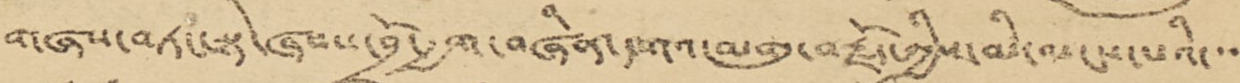གཞས་བཏང་སྟེ་ཞབས་བྲོ་རྒྱག་བཞིན་དགའ་མགུ་བརྗོད་ཀྱིས་མི་མངས་པའི་་་
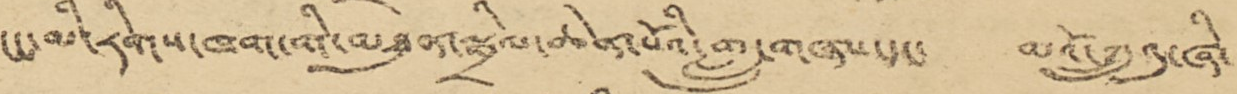ངང་མི་རིགས་ཁག་གི་མཐུན་སྒྲིལ་ཆེན་པོའི་གླུ་གཞས་དང་ མའོ་ཀྲུའུ་ཞི་
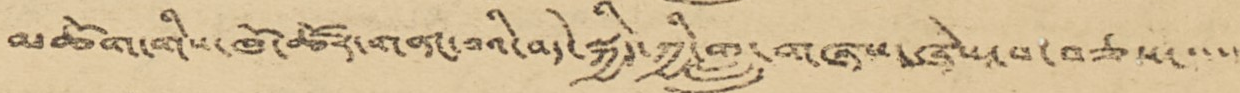མཆོག་གིས་ཁོ་ཚོར་གནང་བའི་བདེ་སྐྱིད་ཀྱི་གླུ་གཞས་ཞེས་པ་བཅས་་་་་
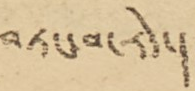བཏང་བ་རེད་།
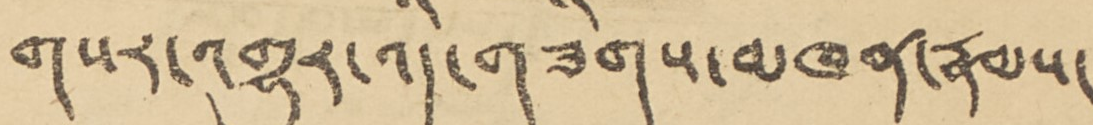གསར་འགྱུར་འདི་གཟིགས་མཁན་རྣམས་
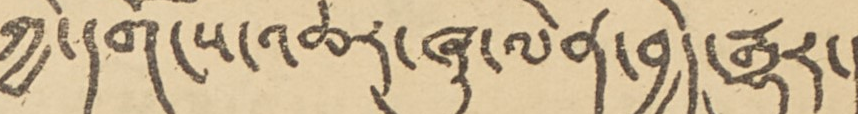ཀྱི་དགོངས་འཆར་ཞུ་ལེན་བྱེད་རྒྱུར་།
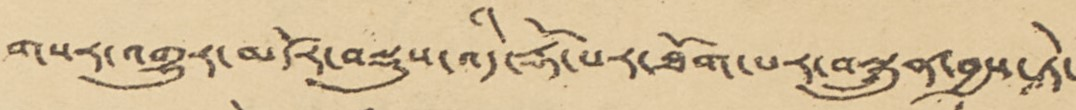གསར་འགྱུར་མདོར་བསྡུས་འདི་རྡོ་པར་ཐོག་པར་བསྐྲུན་བྱས་ཏེ་
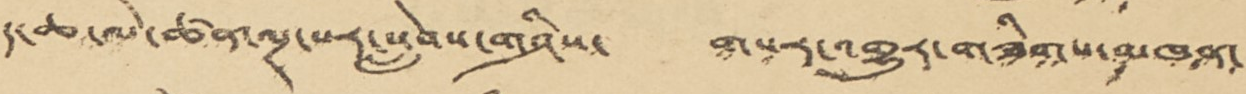ད་ཆ་ལེ་ཚན་ལྔ་པར་སླེབས་གཤིས་ གསར་འགྱུར་གཟིགས་མཁན་
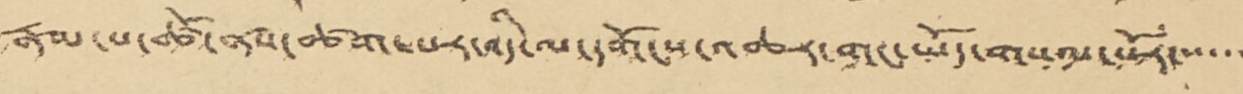རྣམ་པ་ཚོ་ནས་ཚགས་པར་འདི་ལ་དགོངས་འཆར་གང་ཡོད་གསལ་པོར་་་་་་
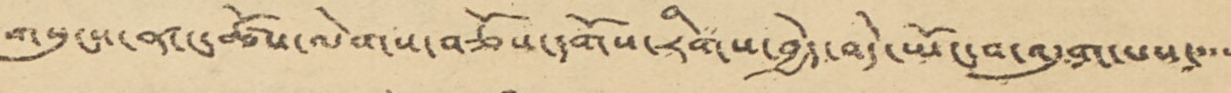གསུངས་ན་ང་ཚོས་ལེགས་བཅོས་དགོས་རིགས་བྱེད་བདེ་ཡོང་བ་འདུག་པས་་་་
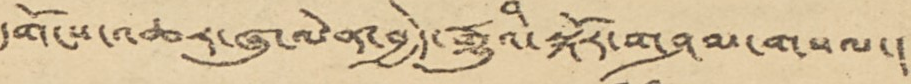དགོངས་འཆར་ཞུ་ལེན་བྱེད་རྒྱུའི་སྐོར་གཤམ་གསལ་།
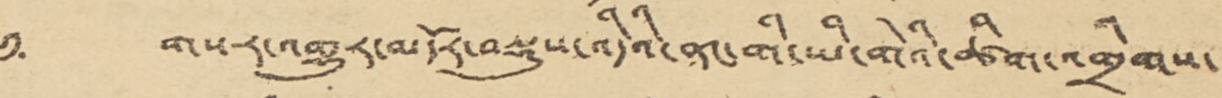༡་ གསར་འགྱུར་མདོར་བསྡུས་འདིའི་ནང་གི་ཡི་གེའི་ཚིག་འགྲིགས་
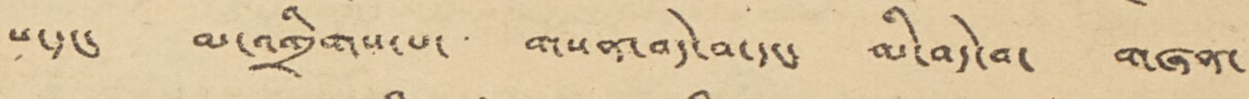པ་དང་ མ་འགྲིགས་པ་ གསན་བདེ་བ་དང་ མི་བདེ་བ་ གཞན་
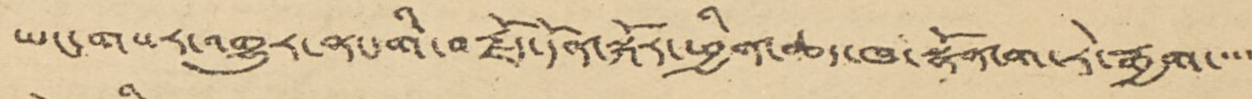ཡང་གསར་འགྱུར་ནང་གི་བརྗོད་དོན་སྐོར་ཕྱིན་ཆད་ཁ་སྣོན་ག་རེ་རྒྱག་་་་
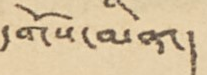དགོས་མིན་།
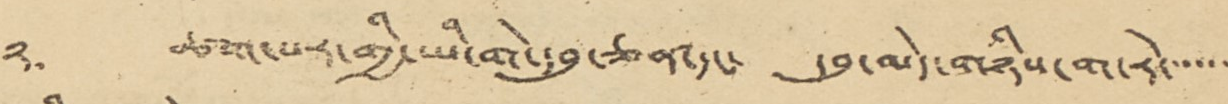༢་ ཚག་པར་གྱི་ཡི་གེ་དབུ་ཅན་དང་ དབུ་མེད་གཉིས་ག་རེ་་་་་་
